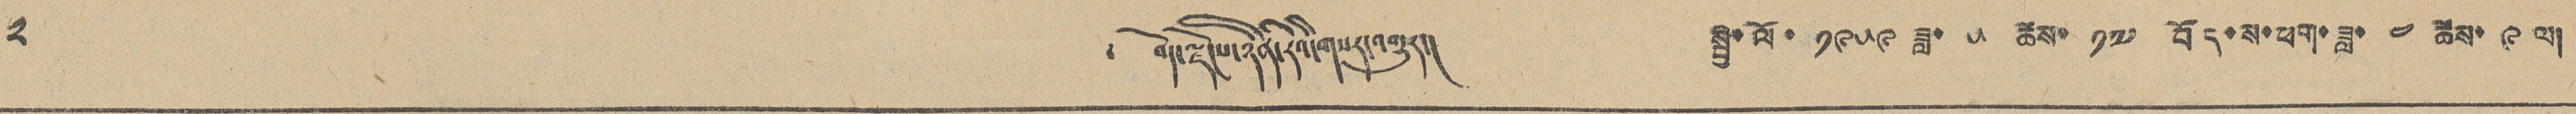༢ ༄ བོད་ལྗོངས་ཉིན་རེའི་གསར་འགྱུར། སྤྱི་ལོ་ ༡༩༥༩ ཟླ་ ༥ ཚེས་ ༡༧ བོད་ས་ཕག་ཟླ་ ༤ ཚེས་ ༩ ལ།
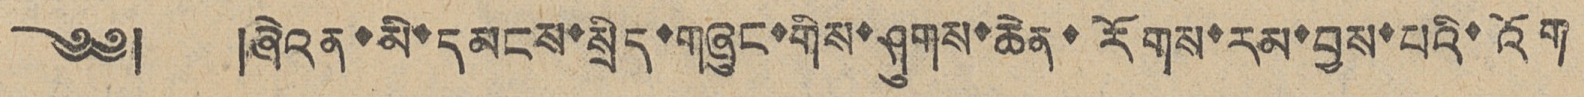༄༅། །ཞེའན་མི་དམངས་སྲིད་གཞུང་གིས་ཤུགས་ཆེན་རོགས་རམ་བྱས་པའི་འོག
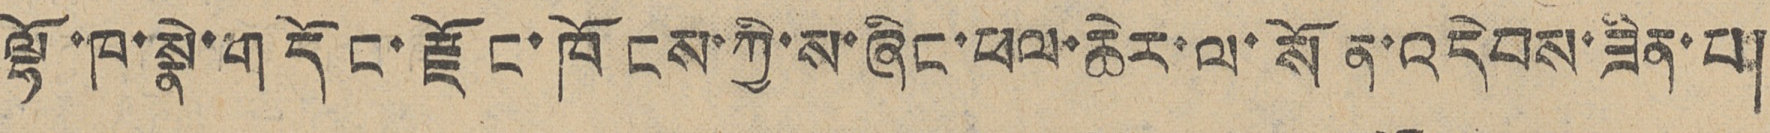ལྷོ་ཁ་སྣེ་གདོང་རྫོང་ཁོངས་ཀྱི་ས་ཞིང་ཕལ་ཆེར་ལ་སོན་འདེབས་ཟིན་པ།
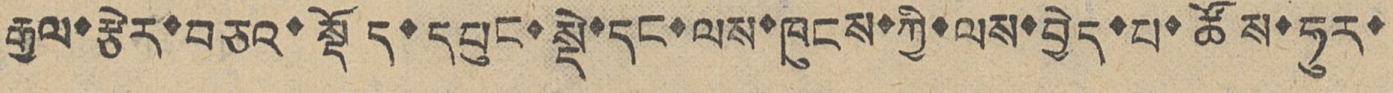རྒྱལ་རྩེར་བཅའ་སྡོད་དཔུང་སྡེ་དང་ལས་ཁུངས་ཀྱི་ལས་བྱེད་པ་ཚོས་ཧུར་
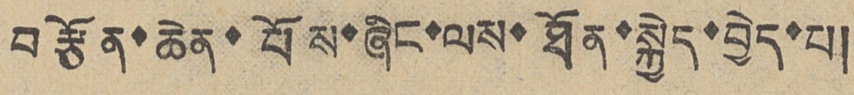བརྩོན་ཆེན་པོས་ཞིང་ལས་ཐོན་སྐྱེད་བྱེད་པ།
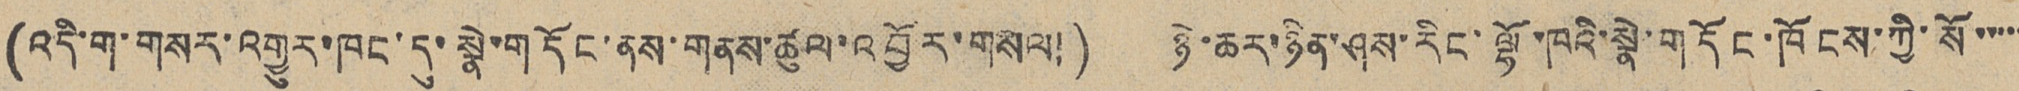(འདི་ག་གསར་འགྱུར་ཁང་དུ་སྣེ་གདོང་ནས་གནས་ཚུལ་འབྱོར་གསལ།) ཉེ་ཆར་ཉིན་ཤས་རིང་ལྷོ་ཁའི་སྣེ་གདོང་ཁོངས་ཀྱི་སོ་་་་་
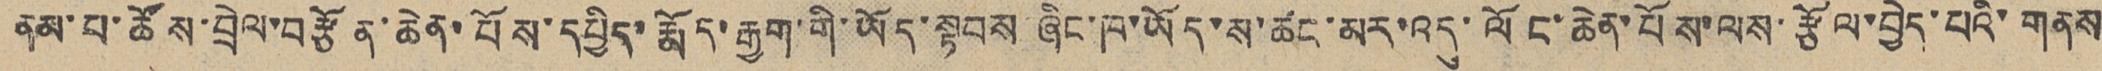ནམ་པ་ཚོས་བྲེལ་བརྩོན་ཆེན་པོས་དཔྱིད་རྨོད་རྒྱག་གི་ཡོད་སྟབས ཞིང་ཁ་ཡོད་ས་ཚང་མར་འདུ་ལོང་ཆེན་པོས་ལས་རྩོལ་བྱེད་པའི་གནས
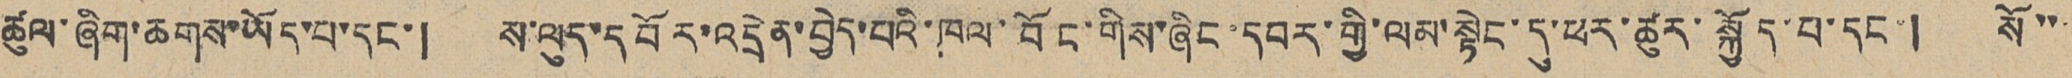ཚུལ་ཞིག་ཆགས་ཡོད་པ་དང་། ས་ལུད་དབོར་འདྲེན་བྱེད་པའི་ཁལ་བོང་གིས་ཞིང་དབར་གྱི་ལས་སྟེང་དུ་ཕར་ཚུར་སྐྱོད་པ་དང་། སོ་་་་
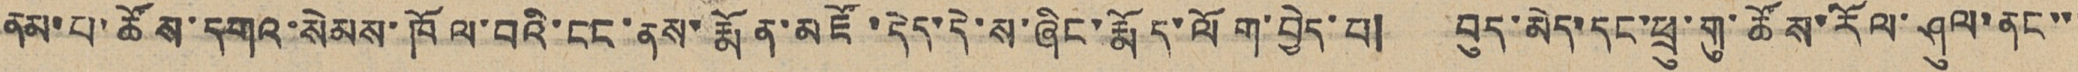ནམ་པ་ཚོས་དགའ་སེམས་ཁོལ་བའི་ངང་ནས་རྨོན་མཛོ་དེད་དེ་ས་ཞིང་རྨོད་ལོག་བྱེད་པ། བུད་མེད་དང་ཕྲུ་གུ་ཚོས་རོལ་ཤུལ་ནང་་་
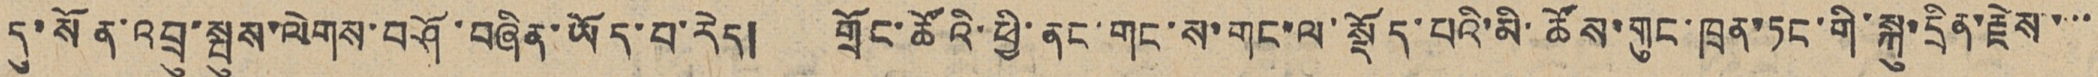དུ་སོན་འབྲུ་སྤུས་ལེགས་བཤོ་བཞིན་ཡོད་པ་རེད། གྲོང་ཚོའི་ཕྱི་ནང་གང་ས་གང་ལ་སྡོད་པའི་མི་ཚོས་གུང་ཁྲན་ཏང་གི་སྐུ་དྲིན་རྗེས་་་་
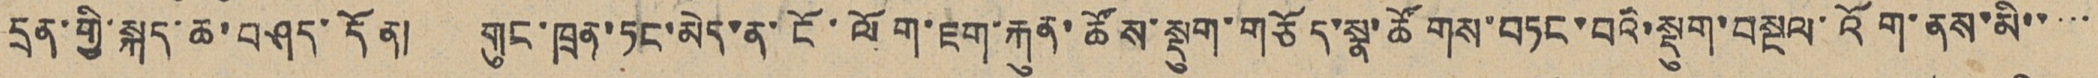དྲན་གྱི་སྐད་ཆ་བཤད་དོན། གུང་ཁྲན་ཏང་མེད་ན་ངོ་ལོག་ཇག་རྐུན་ཚོས་སྡུག་གཅོད་སྣ་ཚོགས་བཏང་བའི་སྡུག་བསྔལ་འོག་ནས་མི་་་་་
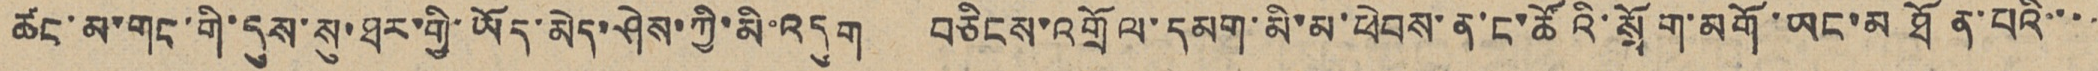ཚང་མ་གང་གི་དུས་སུ་ཐར་གྱི་ཡོད་མེད་ཤེས་ཀྱི་མི་འདུག བཅིངས་འགྲོལ་དམག་མི་མ་ཕེབས་ན་ང་ཚོའི་སྲོག་མགོ་ཡང་མཐོན་པའི་་་་
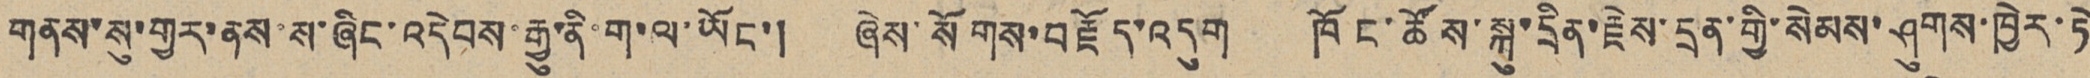གནས་སུ་གྱར་ནས་ས་ཞིང་འདེབས་རྒྱུ་ནི་ག་ལ་ཡོང་། ཞེས་སོགས་བརྗོད་འདུག ཁོང་ཚོས་སྐུ་དྲིན་རྗེས་དྲན་གྱི་སེམས་ཤུགས་ཁྱེར་ཏེ
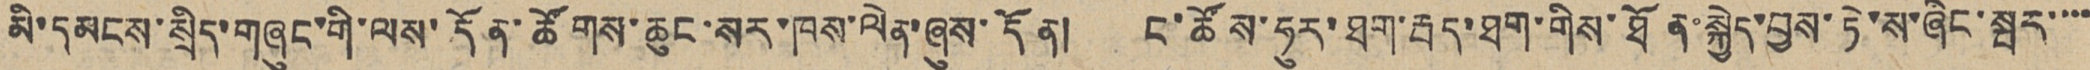མི་དམངས་སྲིད་གཞུང་གི་ལས་དོན་ཚོགས་ཆུང་སར་ཁས་ལེན་ཞུས་དོན། ང་ཚོས་ཧུར་ཐག་རྦད་ཐག་གིས་ཐོན་སྐྱེད་བྱས་ཏེ་ས་ཞིང་སྦར་་་་
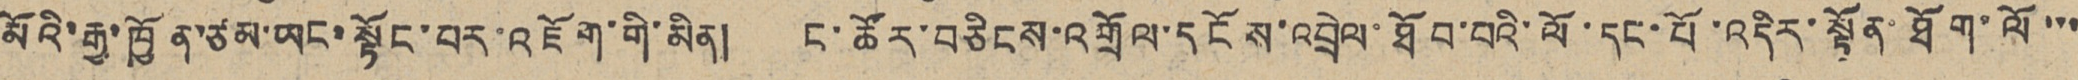མོའི་རྒྱ་ཁྱོན་ཙམ་ཡང་སྟོང་བར་འཇོག་གི་མིན། ང་ཚོར་བཅིངས་འགྲོལ་དངོས་འབྲེལ་ཐོབ་པའི་ལོ་དང་པོ་འདིར་སྟོན་ཐོག་ལོ་་་
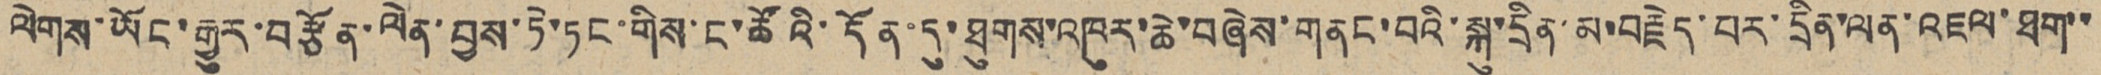ལེགས་ཡོང་རྒྱུར་བརྩོན་ལེན་བྱས་ཏེ་ཏང་གིས་ང་ཚོའི་དོན་དུ་ཐུགས་འཁུར་ཆེ་བཞེས་གནང་བའི་སྐུ་དྲིན་མ་བརྗེད་པར་དྲིན་ལན་འཇལ་ཐག་་
